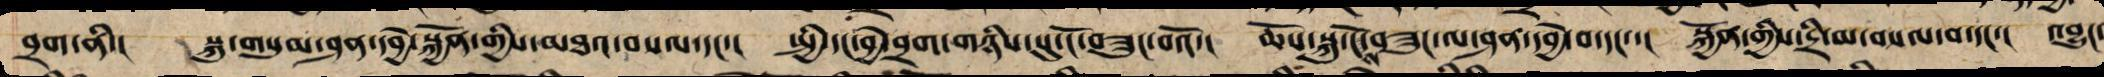བྲག་ནི། སྐུ་གསུམ་ཤན་དབྱེ་སྐྱོན་གྱི་མཐའ་བསལ་དང་། སྤྱི་དང་དྲེ་བྲག་གཉིས་སུ་ངོས་བཟུང་བའོ་། ཆོས་སྐུ་ངོས་བཟུང་ལ་ཤན་དབྱེ་བ་དང་། སྐྱོན་གྱི་དྲི་མ་བསལ་བ་དང་། འབྱུང་
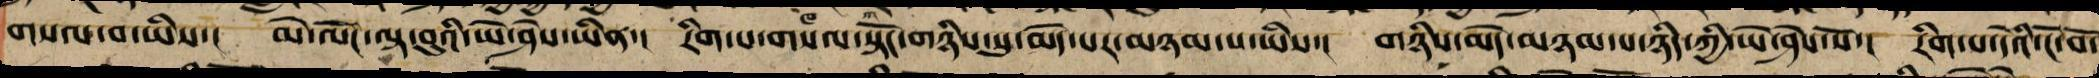གསལ་བ་ཡིས་། མེ་ལོང་ལྟ་བུའི་ཡེ་ཤེས་ཡིན་། རིག་པ་གསལ་སྟོང་གཉིས་སུ་མེད་པར་མཉམ་པ་ཡིས་། གཉིས་མེད་མཉམ་པ་ཉིད་ཀྱི་ཡེ་ཤེས་སོ་། རིག་པ་དེའི་ངོ་བོ་
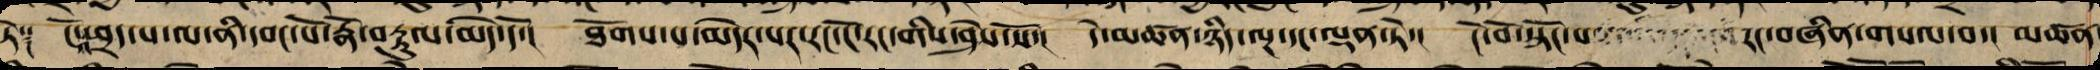ཏེ། ངོ་འཕྲོད་པ་ནི་དབང་པོ་རྣོ་བརྟུལ་མེད་དོ་། ཐོགས་པ་མེད་པར་རང་ངོ་རང་གིས་ཤེས་སོ་། དེ་མཚན་ཉིད་ལྔ་དང་ལྡན་ཏེ་། ངོ་བོ་སྟོང་པ་རང་བཞིན་གསལ་བ། མཚན་
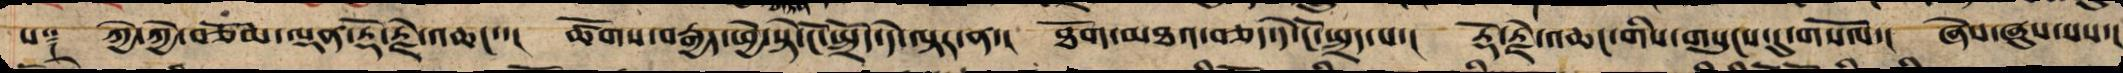པ། ཀྱེ་ཀྱེ་བཅོམ་ལྡན་རྡོ་རྗེ་འཆང་། ཚོགས་བརྒྱད་ཕྱེ་སྟེ་ངོ་སྤྲོད་དེ་ལྟར་ན་། ཐོག་མཐའ་བཅད་དེ་ངོ་སྤྲད་པ་། རྡོ་རྗེ་འཆང་གིས་གསུང་དུ་གསོལ་། ཞེས་ཞུས་པས།
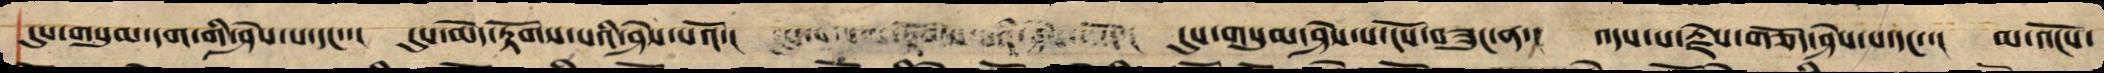དུས་གསུམ་དག་གི་ཤེས་པ་དང་་།   དུས་མེད་རྟོག་པའི་ཤེས་པའོ་།   དུས་གསུམ་ཤེས་པ་ངོས་བཟུང་ན་།   འདས་པ་རྗེས་གཅོད་ཤེས་པ་དང་་།    མ་འོངས་
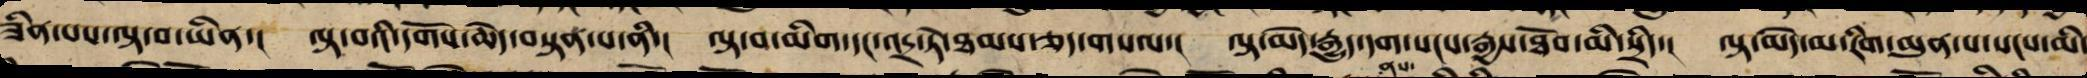ཟིན་པས་ལྟ་བ་ཡིན་།   ལྟ་བའི་དགོས་ཆེད་བསྟན་པ་ནི་།   ལྟ་བ་མིག་དང་འདྲ་ཏེ་ཐམས་ཅད་གསལ་།   ལྟ་མེད་རྒྱུད་དག་སངས་རྒྱས་ཐོབ་མི་སྲིད་།   ལྟ་མེད་མ་རིག་མུན་པ་སངས་མི་
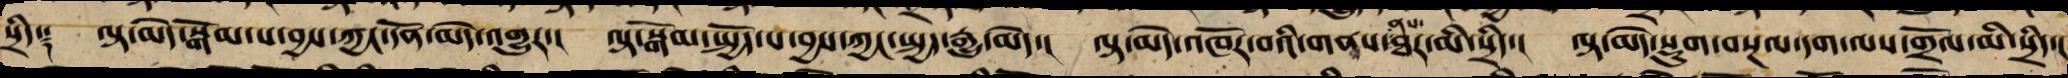སྲིད༈      ལྟ་མེད་བསྒོམ་པ་བྱས་ཀྱང་དོན་མི་འགྱུར་།   ལྟ་སྒོམ་སྤྱོད་པ་བྱས་ཀྱང་སྤྱོད་རྒྱུ་མེད་།   ལྟ་མེད་འཁོར་བའི་གནས་ནས་ཐར་མི་སྲིད་།   ལྟ་མེད་སྡུག་བསྔལ་དག་ལས་གྲོལ་མི་སྲིད།
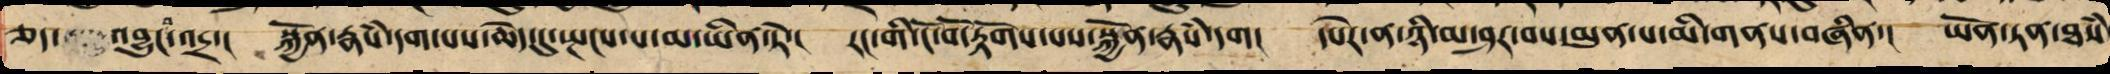ཅད་འབྱུང་བ་འདྲ་།   སྐྱོན་རྣཾས་དག་པས་ཆེད་དུ་སྤངས་པ་མ་ཡིན་ཏེ་།   རང་གི་ངོ་བོ་རྟོགས་པས་སྐྱོན་རྣཾ་དག།   དཔེར་ན་ཉི་མ་ཤར་བས་མུན་པ་མི་གནས་བཞིན་།   ཡོན་ཏན་ཐཾས
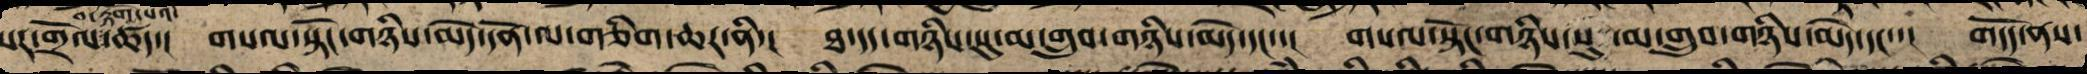སར་གྲོལ་བ་རྟོགས་པའི་ཚད་།    གསལ་སྟོང་གཉིས་མེད་དོན་ལ་གཅིག་ཆར་ནི་།    ཐ་དད་གཉིས་སུ་མ་གྲུབ་གཉིས་མེད་དང་་།   གསལ་སྟོང་གཉིས་སུ་མ་གྲུབ་གཉིས་མེད་དང་་།  གདོད་ནས་
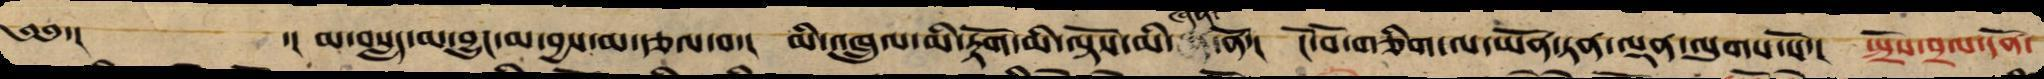༄༅་།   ་འ   མ་བསླད་མ་བྱུང་མ་བྱས་མ་རྩལ་བ་།   མི་འཁྲུལ་མི་རྟོག་མི་ལྟོས་མི་ཞན་ནོ་།   ངོ་བོ་གཅིག་ལ་ཡོན་ཏན་ལྡན་ལུགས་སོ་།   སྤྲོས་བྲལ་དོན་
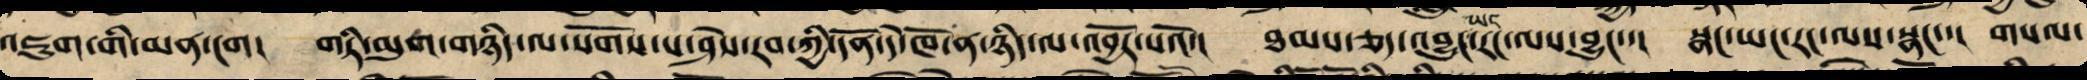འཇུག་གི་མན་ངག།   གཏི་མུག་གཉིད་ལ་སོགས་པ་ཤེས་རབ་ཀྱི་དོན་དེ་ཁོ་ན་ཉིད་ལ་འབྱོར་པའོ་།   ཐམས་ཅད་བྱུང་ཡང་རང་ལས་བྱུང་་།   སྣང་ཡང་རང་ལས་སྣང་་།   གསལ་
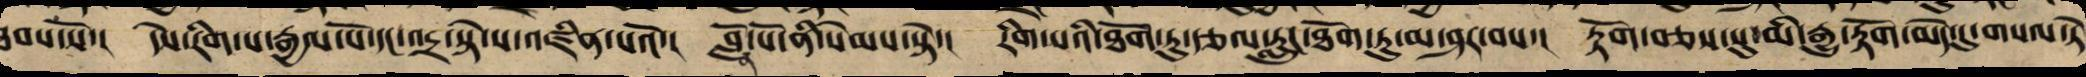ཐབས་སོ་།   དེས་རིག་པ་རྒྱལ་པོ་དང་འདྲ་སྟེ་རང་ས་འཛིན་པའོ་།   བློན་པོ་ནི་སེམས་སྟེ་།   རིག་པའི་ཐོག་ཏུ་རླུང་ཐོག་ཏུ་མ་ཤར་བས་།   རྟོག་བཅས་སུ་མི་རྒྱུ་རྟོག་མེད་དུ་གསལ་ཏེ
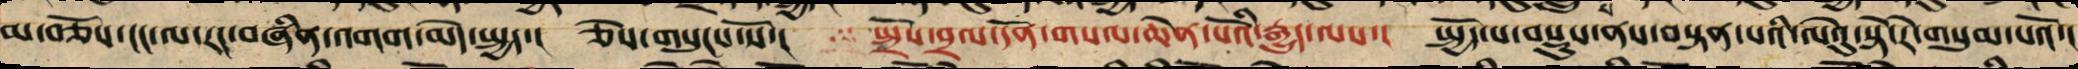མ་བཅོས་ངང་ལ་རང་བཞིན་འགགས་མེད་སྤྱད་།    ཅེས་གསུངས་སོ་།   སྤྲོས་བྲལ་དོན་གསལ་ཆེན་པོའི་རྒྱུད་ལས་།   སྤྱོད་པ་བསྡུས་ནས་བསྟན་པའི་ལེའུ་སྟེ་རེ་གསུམ་པའོ་།།
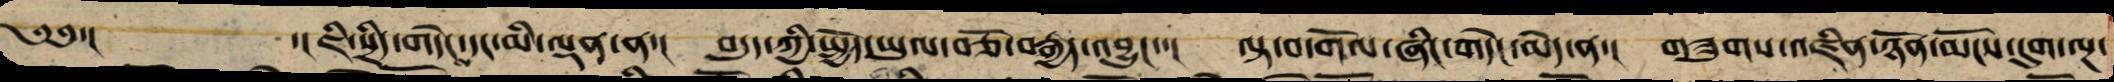༄༅་།    ་།  ཇི་སྲིད་གདེངས་དང་མི་ལྡན་ན་།    བདུད་ཀྱི་སྤྱོད་ཡུལ་བཅོ་བརྒྱད་བྱུང་་།    ལྟ་བ་གོལ་ཞིང་གདེང་མེད་ན་།   གཟུང་འཛིན་ཉོན་མོངས་དུག་ལྔ་
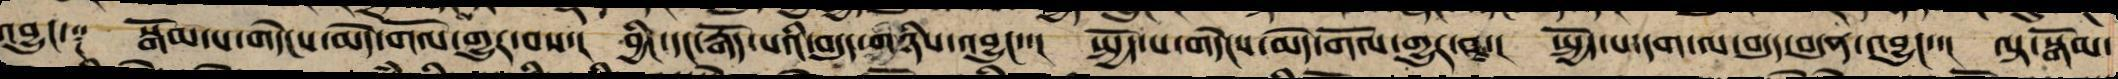འབྱུང་༈    བསྒོམ་པ་གདེངས་མེད་གོལ་གྱུར་བསས།    བྱིང་དང་རྒོད་པའི་བདུད་གཉིས་བྱུང་།   སྤྱོད་པ་གདེང་མེད་གོལ་གྱུར་བ་།   སྤྱོད་པ་དག་ལ་བདུད་བདུན་བྱུང་་།   ལྟ་སྒོམ་
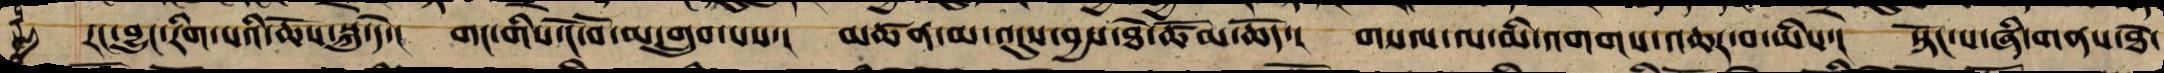རང་བྱུང་རིག་པ་ཆོས་སྐུ་དེ་།   གང་གིས་ངོ་བོ་མ་གྲུབ་པས་།   མཚན་མ་འདུས་བྱས་ཐེ་ཚོམ་ཆོད་།   གསལ་ལ་མི་འགགས་འཆར་བ་ཡིས་།   སྟོང་པ་ཞི་གནས་ཐེ་
